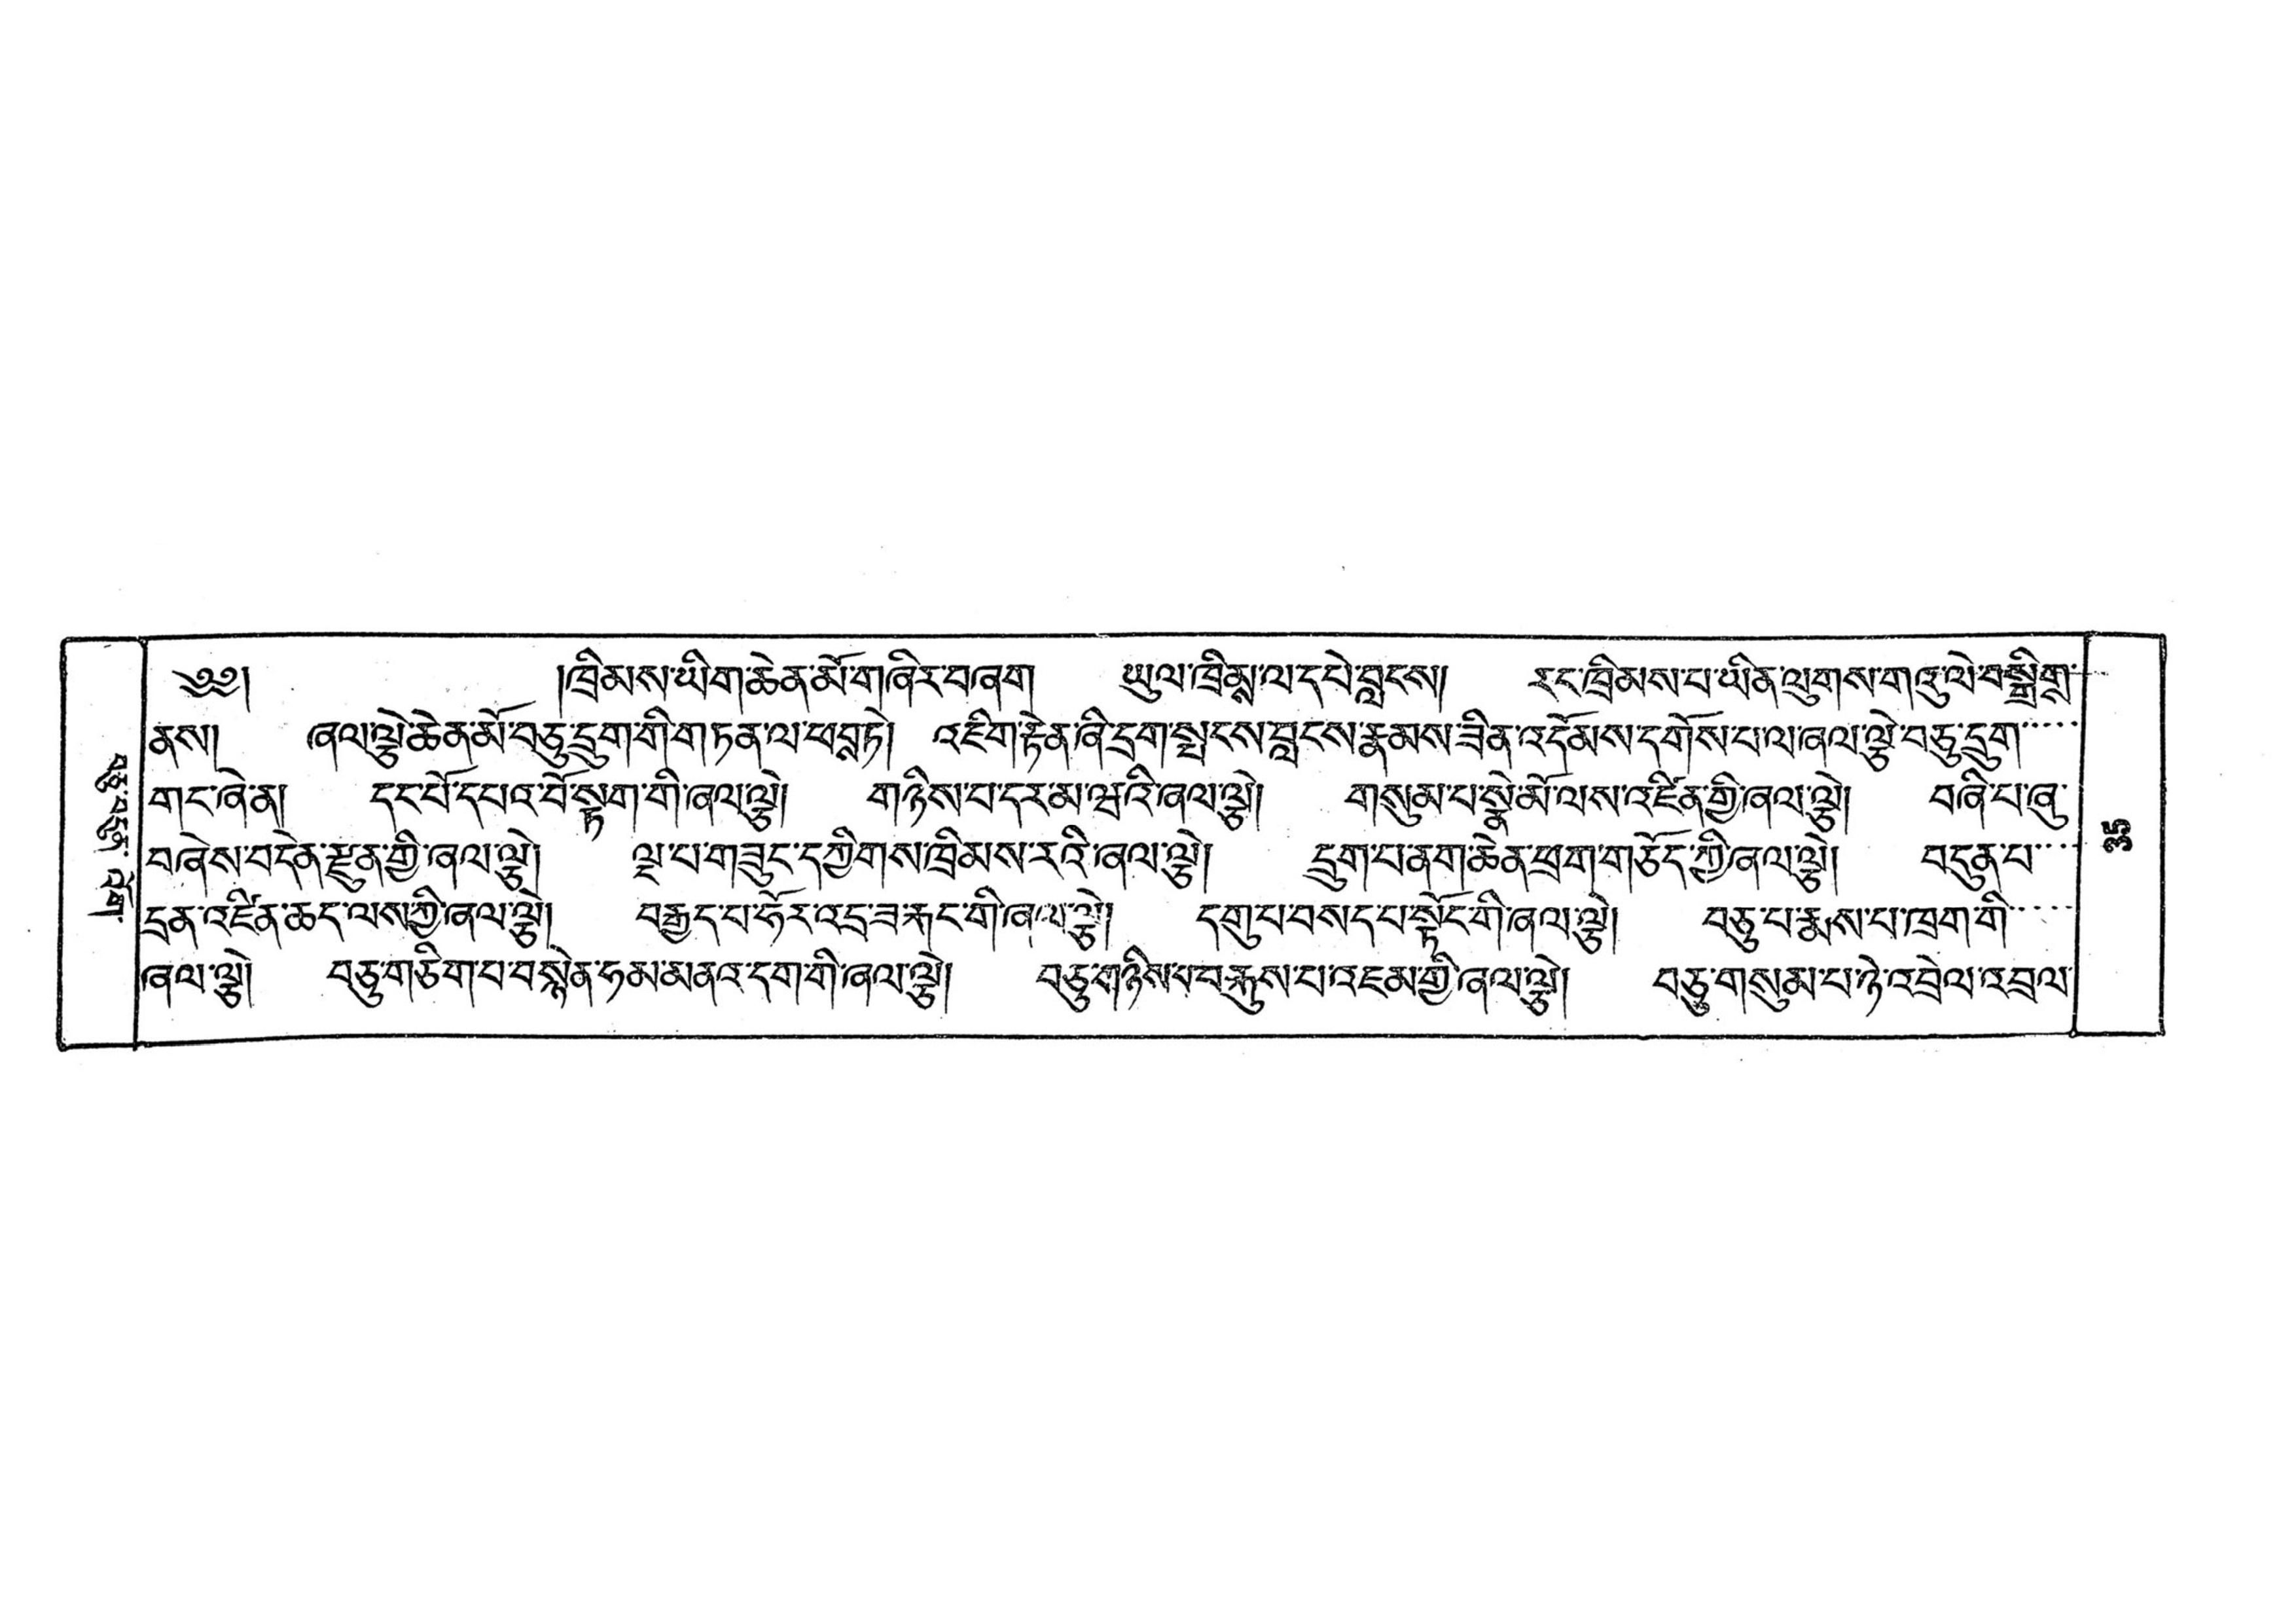བཅུ་བདུན་ འོག་
༄༅། །ཁྲིམས་ཡིག་ཆེན་མོ་གཞིར་བཞག ཡུལ་ཁྲིམས་ལ་དཔེ་བླངས། རང་ཁྲིམས་པ་ཡིན་ལུགས་གའུ་ལེ་བསྒྲིགས་
ནས། ཞལ་ལྕེ་ཆེན་མོ་བཅུ་དྲུག་གི་གཏན་ལ་ཕབས་ཏེ། འཇིག་རྟེན་ཞི་དྲག་སྤངས་བླངས་རྣམས་ཟིན་འདོམས་དགོས་པ་ལ་ཞལ་ལྕེ་བཅུ་དྲུག་་་་
གང་ཞེ་ན། དང་པོ་དཔའ་བོ་སྟག་གི་ཞལ་ལྕེ། གཉིས་པ་དར་མ་ཝའི་ཞལ་ལྕེ། གསུམ་པ་སྣེ་མོ་ལས་འཛིན་གྱི་ཞལ་ལལྕེ། བཞི་པ་ཞུ་
བཞེས་བདེན་རྫུན་གྱི་ཞལ་ལྕེ། ལྔ་པ་གཟུང་དཀྱིགས་ཁྲིམས་རའི་ཞལ་ལྕེ། དྲུག་བ་ནག་ཆེན་ཕྲག་གཅོད་ཀྱི་ཞལ་ལྕེ། བདུན་པ་་་་
དྲན་འཛིན་ཆད་ལས་ཀྱི་ཞལ་ལྕེ། བརྒྱད་པ་ཧོར་འདྲ་ཟ་རྐང་གི་ཞལ་ལྕེ། དགུ་པ་བསད་པ་སྟོང་གི་ཞལ་ལྕེ། བཅུ་པ་རྨས་པ་ཁྲག་གི་་་་
ཞལ་ལྕེ། བཅུ་གཅིག་པ་བསྙེན་ཧམ་མནའ་དག་གི་ཞལ་ལྕེ། བཅུ་གཉིསཔ་བརྐུས་པ་འཇམ་གྱི་ཞལ་ལྕེ། བཅུ་གསུམ་པ་ཉེ་འབྲེལ་འབྲལ་
